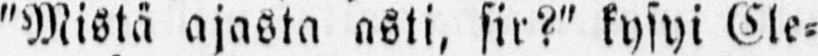"Mistä ajasta asti, sir?" kysyi Cle-
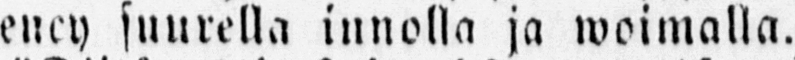mency suurella innolla ja woimalla.
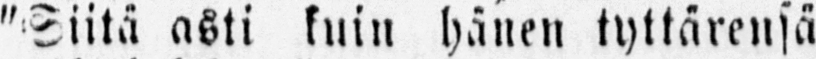"Siitä asti kuin hänen tyttärensä
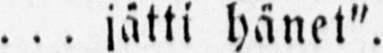. . . jätti hänet".
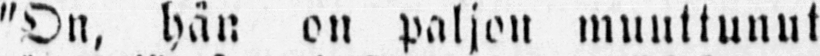"On, hän on paljon muuttunut
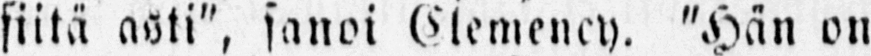siitä asti", sanoi Clemency. "Hän on
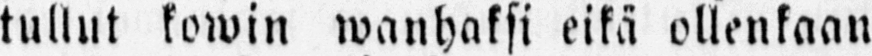tullut kowin wanhaksi eikä ollenkaan
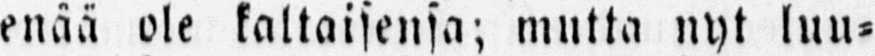enää ole kaltaisensa; mutta nyt luu-
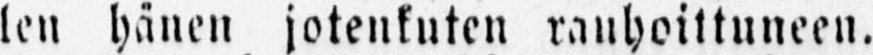len hänen jotenkuten rauhoittuneen.
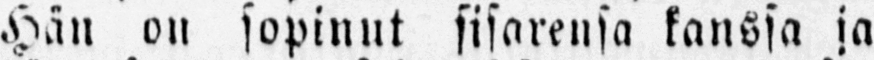Hän on sopin ut sisarensa kanssa ja
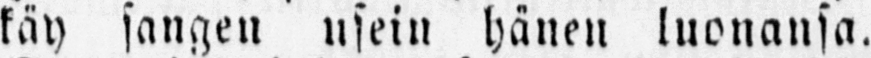käy saneen usein hänen luonansa.
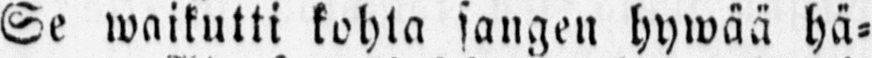Se waikutti kohta sangen hywää hä-
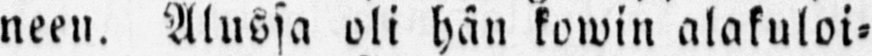neen. Alussa oli hän kowin alakuloi-
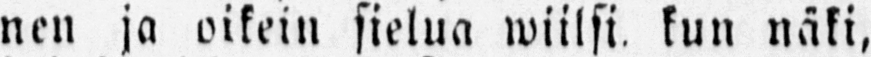nen ja oikein sielua wiilsi, kun näki,
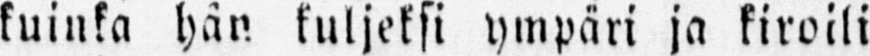kuinka hän kuljeksi ympäri ja kiroili
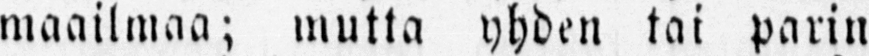maailmaa; mutta yhden tai parin
